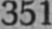351
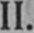II.
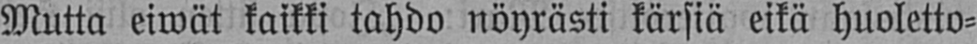Mutta eiwät kaikki tahdo nöyrästi kärsiä eikä huoletto-
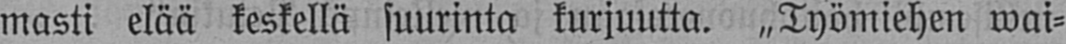masti elää keskellä suurinta kurjuutta. „Työmiehen wai-
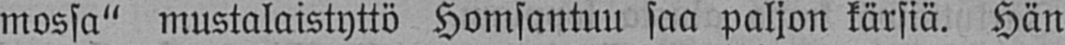mossa" mustalaistyttö Homsantuu saa paljon kärsiä. Hän
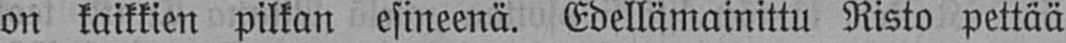on kaikkien pilkan esineenä. Edellämainittu Risto pettää
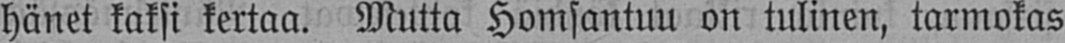hänet kaksi kertaa. Mutta Homsantuu on tulinen, tarmokas
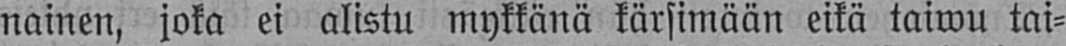nainen, joka ei alistu mykkänä kärsimään eikä taiwu tai-
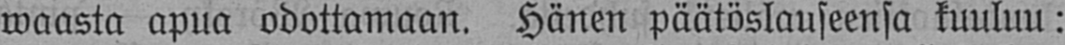waasta apua odottamaan. Hänen päätöslauseensa kuuluu:
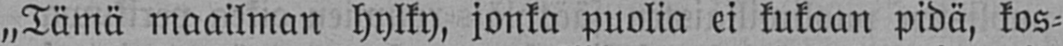„Tämä maailman hylky, jonka puolia ei kukaan pidä, kos-
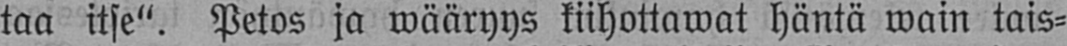taa itse". Petos ja wääryys kiihottawat häntä wain tais-
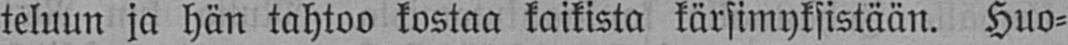teluun ja hän tahtoo kostaa kaikista kärsimyksistään. Huo-
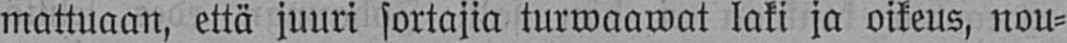mattuaan, että juuri sortajia turwaawat laki ja oikeus, nou-
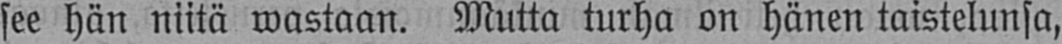see hän niitä wastaan. Mutta turha on hänen taistelunsa,
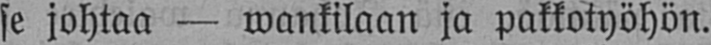se johtaa — wankilaan ja pakkotyöhön.
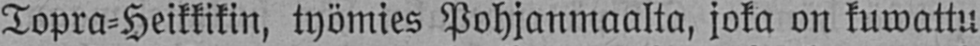Topra-Heikkikin, työmies Pohjanmaalta, joka on kuwattu
